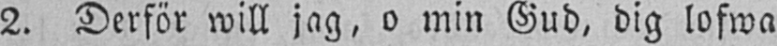2. Derför will jag, o min Gud, dig lofwa
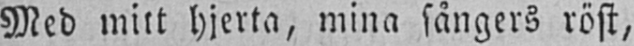Med mitt hjerta, mina sångers röst,
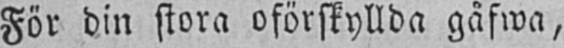För din stora oförskyllda gåfwa,
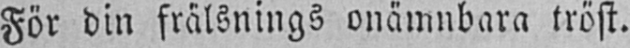För din frälsnings onämnbara tröst.
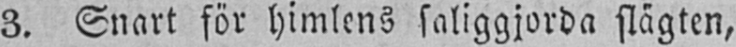3. Snart för himlens saliggjorda slägten,
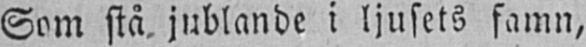Som stå jublande i ljusets famn,
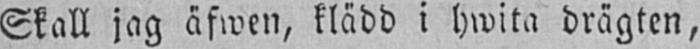Skall jag äfwen, klädd i hwita drägten,
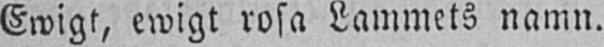Ewigt, ewigt rosa Lammets namn.
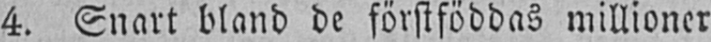4. Snart bland de förstföddas millioner
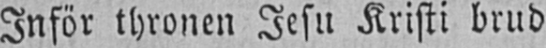Inför thronen Jesu Kristi brud
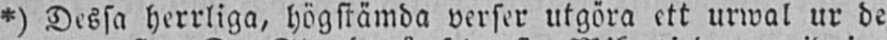*) Dessa herrliga, högstämda verser utgöra ett urwal ur de
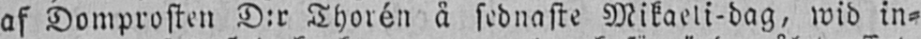af Domprosten D:r Thorén å sednaste Mikaeli-dag, wid in-
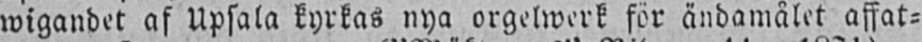wigandet af Upsala kyrkas nya orgelwerk för ändamålet affat-
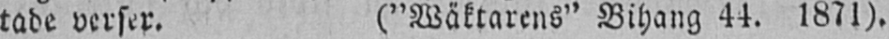tade verser. ("Wäktarens" Bihang 44. 1871).
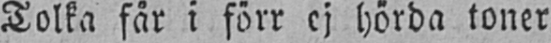Tolka får i förr ej hörda toner
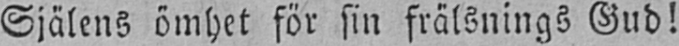Själens ömhet för sin frälsnings Gud!
